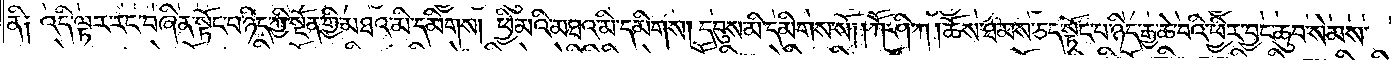ནི། འདི་ལྟར་རང་བཞིན་སྟོང་པ་ཉིད་ཀྱི་སྔོན་གྱི་མཐའ་མི་དམིགས། ཕྱི་མའི་མཐའ་མི་དམིགས། དབུས་མི་དམིགས་སོ། །ཀཽ་ཤི་ཀ །ཆོས་ཐམས་ཅད་སྟོང་པ་ཉིད་རྒྱ་ཆེ་བའི་ཕྱིར་བྱང་ཆུབ་སེམས་
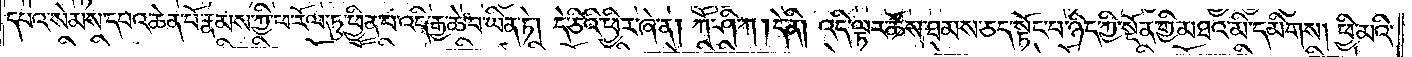དཔའ་སེམས་དཔའ་ཆེན་པོ་རྣམས་ཀྱི་ཕ་རོལ་ཏུ་ཕྱིན་པ་འདི་རྒྱ་ཆེ་བ་ཡིན་ཏེ། དེ་ཅིའི་ཕྱིར་ཞེ་ན། ཀཽ་ཤི་ཀ །དེ་ནི། འདི་ལྟར་ཆོས་ཐམས་ཅད་སྟོང་པ་ཉིད་ཀྱི་སྔོན་གྱི་མཐའ་མི་དམིགས། ཕྱི་མའི་
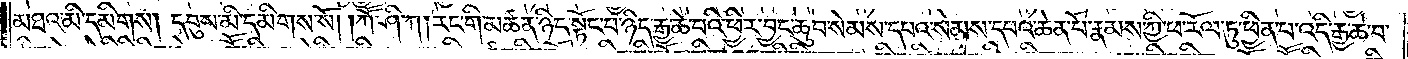མཐའ་མི་དམིགས། དབུས་མི་དམིགས་སོ། །ཀཽ་ཤི་ཀ། རང་གི་མཚན་ཉིད་སྟོང་པ་ཉིད་རྒྱ་ཆེ་བའི་ཕྱིར་བྱང་ཆུབ་སེམས་དཔའ་སེམས་དཔའ་ཆེན་པོ་རྣམས་ཀྱི་ཕ་རོལ་ཏུ་ཕྱིན་པ་འདི་རྒྱ་ཆེ་བ་
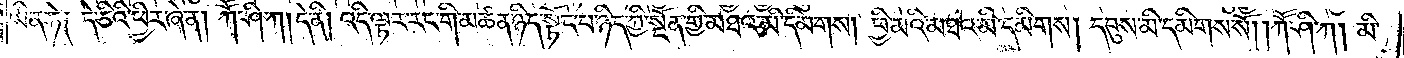ཡིན་ཏེ། དེ་ཅིའི་ཕྱིར་ཞེ་ན། ཀཽ་ཤི་ཀ། དེ་ནི། འདི་ལྟར་རང་གི་མཚན་ཉིད་སྟོང་པ་ཉིད་ཀྱི་སྔོན་གྱི་མཐའ་མི་དམིགས། ཕྱི་མའི་མཐའ་མི་དམིགས། དབུས་མི་དམིགས་སོ། །ཀཽ་ཤི་ཀ། མི་
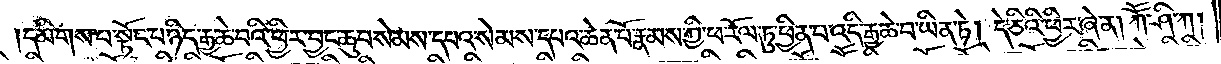དམིགས་པ་སྟོང་པ་ཉིད་རྒྱ་ཆེ་བའི་ཕྱིར་བྱང་ཆུབ་སེམས་དཔའ་སེམས་དཔའ་ཆེན་པོ་རྣམས་ཀྱི་ཕ་རོལ་ཏུ་ཕྱིན་པ་འདི་རྒྱ་ཆེ་བ་ཡིན་ཏེ། དེ་ཅིའི་ཕྱིར་ཞེ་ན། ཀཽ་ཤི་ཀ།
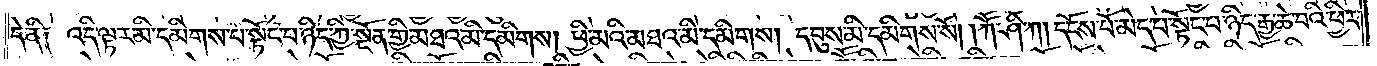དེ་ནི། འདི་ལྟར་མི་དམིགས་པ་སྟོང་པ་ཉིད་ཀྱི་སྔོན་གྱི་མཐའ་མི་དམིགས། ཕྱི་མའི་མཐའ་མི་དམིགས། དབུས་མི་དམིགས་སོ། །ཀཽ་ཤི་ཀ། དངོས་པོ་མེད་པ་སྟོང་པ་ཉིད་རྒྱ་ཆེ་བའི་ཕྱིར་
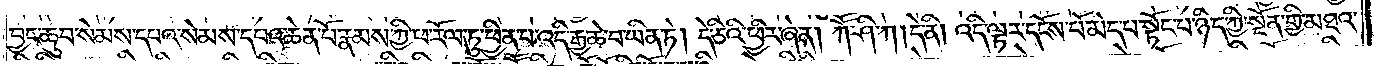བྱང་ཆུབ་སེམས་དཔའ་སེམས་དཔའ་ཆེན་པོ་རྣམས་ཀྱི་ཕ་རོལ་ཏུ་ཕྱིན་པ་འདི་རྒྱ་ཆེ་བ་ཡིན་ཏེ། དེ་ཅིའི་ཕྱིར་ཞེ་ན། ཀཽ་ཤི་ཀ། དེ་ནི། འདི་ལྟར་དངོས་པོ་མེད་པ་སྟོང་པ་ཉིད་ཀྱི་སྔོན་གྱི་མཐའ་
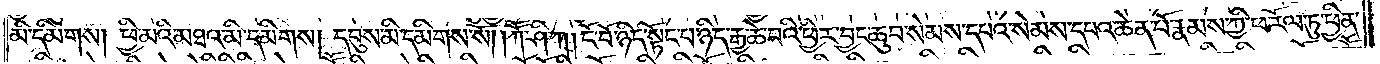མི་དམིགས། ཕྱི་མའི་མཐའ་མི་དམིགས། དབུས་མི་དམིགས་སོ། །ཀཽ་ཤི་ཀ། ངོ་བོ་ཉིད་སྟོང་པ་ཉིད་རྒྱ་ཆེ་བའི་ཕྱིར་བྱང་ཆུབ་སེམས་དཔའ་སེམས་དཔའ་ཆེན་པོ་རྣམས་ཀྱི་ཕ་རོལ་ཏུ་ཕྱིན་
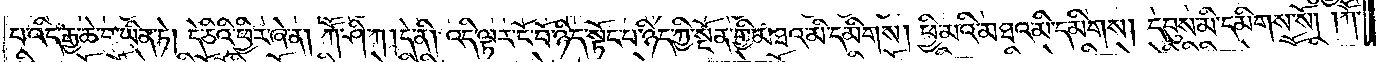པ་འདི་རྒྱ་ཆེ་བ་ཡིན་ཏེ། དེ་ཅིའི་ཕྱིར་ཞེ་ན། ཀཽ་ཤི་ཀ། དེ་ནི། འདི་ལྟར་ངོ་བོ་ཉིད་སྟོང་པ་ཉིད་ཀྱི་སྔོན་གྱི་མཐའ་མི་དམིགས། ཕྱི་མའི་མཐའ་མི་དམིགས། དབུས་མི་དམིགས་སོ། །ཀཽ་
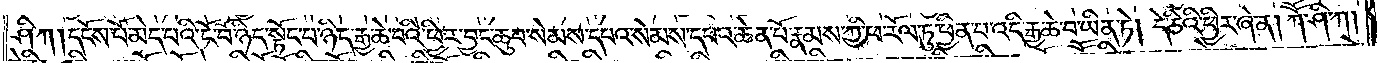ཤི་ཀ། དངོས་པོ་མེད་པའི་ངོ་བོ་ཉིད་སྟོང་པ་ཉིད་རྒྱ་ཆེ་བའི་ཕྱིར་བྱང་ཆུབ་སེམས་དཔའ་སེམས་དཔའ་ཆེན་པོ་རྣམས་ཀྱི་ཕ་རོལ་ཏུ་ཕྱིན་པ་འདི་རྒྱ་ཆེ་བ་ཡིན་ཏེ། དེ་ཅིའི་ཕྱིར་ཞེ་ན། ཀཽ་ཤི་ཀ།
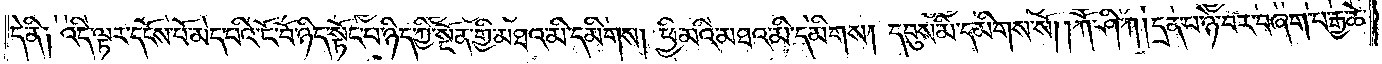དེ་ནི། འདི་ལྟར་དངོས་པོ་མེད་པའི་ངོ་བོ་ཉིད་སྟོང་པ་ཉིད་ཀྱི་སྔོན་གྱི་མཐའ་མི་དམིགས། ཕྱི་མའི་མཐའ་མི་དམིགས། དབུས་མི་དམིགས་སོ། །ཀཽ་ཤི་ཀ། དྲན་པ་ཉེ་བར་བཞག་པ་རྒྱ་ཆེ་
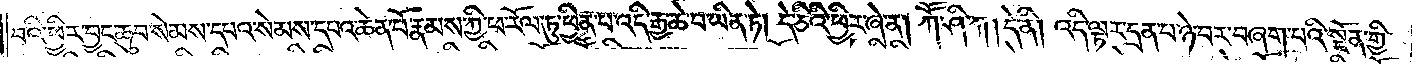བའི་ཕྱིར་བྱང་ཆུབ་སེམས་དཔའ་སེམས་དཔའ་ཆེན་པོ་རྣམས་ཀྱི་ཕ་རོལ་ཏུ་ཕྱིན་པ་འདི་རྒྱ་ཆེ་བ་ཡིན་ཏེ། དེ་ཅིའི་ཕྱིར་ཞེ་ན། ཀཽ་ཤི་ཀ། དེ་ནི། འདི་ལྟར་དྲན་པ་ཉེ་བར་བཞག་པའི་སྔོན་གྱི་
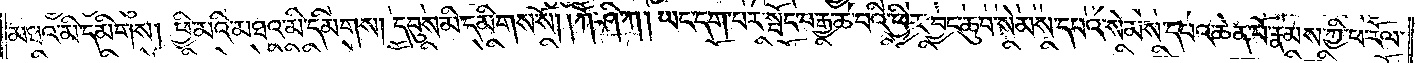མཐའ་མི་དམིགས། ཕྱི་མའི་མཐའ་མི་དམིགས། དབུས་མི་དམིགས་སོ། །ཀཽ་ཤི་ཀ། ཡང་དག་པར་སྤོང་བ་རྒྱ་ཆེ་བའི་ཕྱིར་བྱང་ཆུབ་སེམས་དཔའ་སེམས་དཔའ་ཆེན་པོ་རྣམས་ཀྱི་ཕ་རོལ་
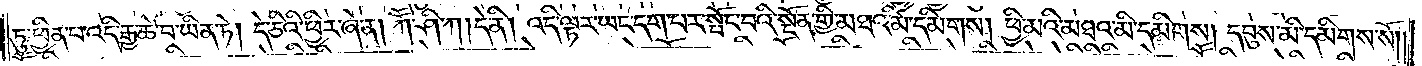ཏུ་ཕྱིན་པ་འདི་རྒྱ་ཆེ་བ་ཡིན་ཏེ། དེ་ཅིའི་ཕྱིར་ཞེ་ན། ཀཽ་ཤི་ཀ། དེ་ནི། འདི་ལྟར་ཡང་དག་པར་སྤོང་བའི་སྔོན་གྱི་མཐའ་མི་དམིགས། ཕྱི་མའི་མཐའ་མི་དམིགས། དབུས་མི་དམིགས་སོ། །
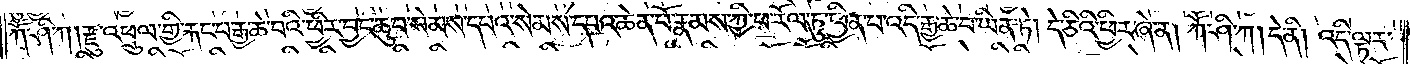ཀཽ་ཤི་ཀ། རྫུ་འཕྲུལ་གྱི་རྐང་པ་རྒྱ་ཆེ་བའི་ཕྱིར་བྱང་ཆུབ་སེམས་དཔའ་སེམས་དཔའ་ཆེན་པོ་རྣམས་ཀྱི་ཕ་རོལ་ཏུ་ཕྱིན་པ་འདི་རྒྱ་ཆེ་བ་ཡིན་ཏེ། དེ་ཅིའི་ཕྱིར་ཞེ་ན། ཀཽ་ཤི་ཀ། དེ་ནི། འདི་ལྟར་
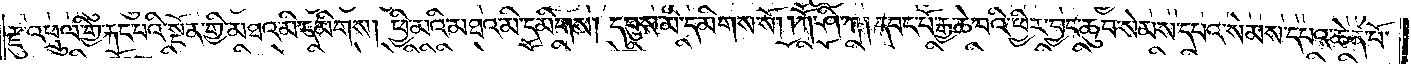རྫུ་འཕྲུལ་གྱི་རྐང་པའི་སྔོན་གྱི་མཐའ་མི་དམིགས། ཕྱི་མའི་མཐའ་མི་དམིགས། དབུས་མི་དམིགས་སོ། །ཀཽ་ཤི་ཀ། དབང་པོ་རྒྱ་ཆེ་བའི་ཕྱིར་བྱང་ཆུབ་སེམས་དཔའ་སེམས་དཔའ་ཆེན་པོ་
